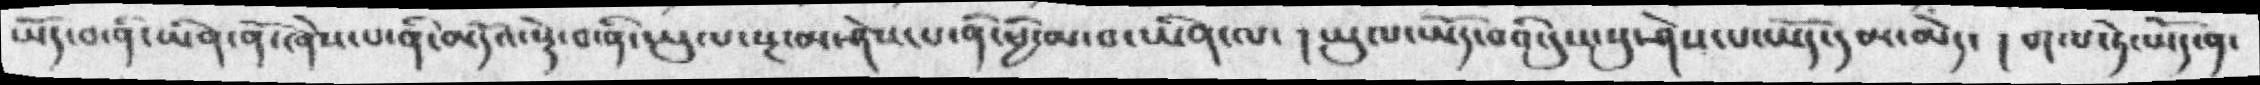ཡོད་པ་ནི་ཡིན་ནོ་ཞེས་པ་ནི་མདོའི་སྡེ་བ་ནི་ཡུལ་སྔ་མ་ཤེས་པ་ནི་ཕྱི་མ་བཡིན་ལ་ ། ཡུལ་ཡོད་པའི་དུས་སུ་ཤེས་པ་ཡོད་དམ་མེད་  ། གལ་ཏེ་ཡོད་ན་
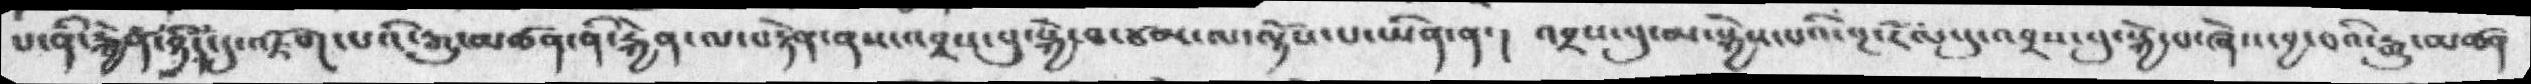པ་ནི་རྐྱེན་ཉིད་དུ་འཇོག་པའི་རྒྱུ་མཚན་ནི་རྐྱེན་ལ་བརྟེན་ནས་འབྲས་བུ་སྐྱེ་བ་ཙམ་ལ་ལྟོས་པ་ཡིན་ན་ ། འབྲས་བུ་མ་སྐྱེས་པའི་སྔ་རོལ་དུ་འབྲས་བུ་སྐྱེ་བ་ཞེས་བྱ་བའི་རྒྱུ་མཚན་
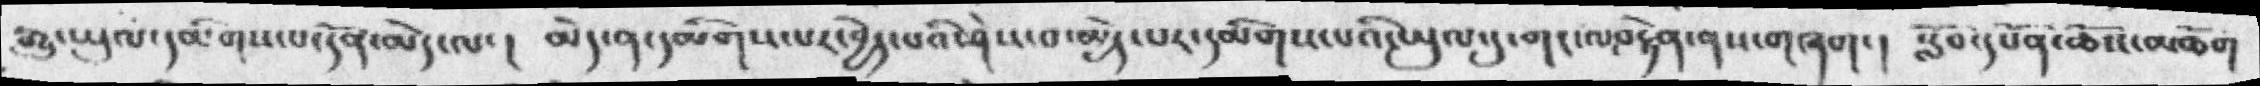རྒྱུ་ཡུལ་དམིགས་པ་དོན་མེད་ལ་ །   མེད་ན་དམིགས་པར་བྱེད་པའི་ཤེས་བ་མྱེད་པར་དམིགས་པའི་ཡུལ་དུ་གང་ལ་བརྟེན་ནས་གཞག་།   སློབ་དཔོན་ཆོས་མཆོག་
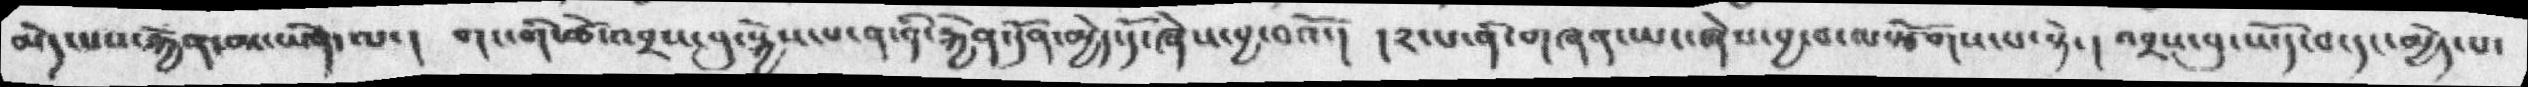མེད་པས་རྐྱེན་མ་ཡིན་ལ་།  གང་གི་ཚེ་འབྲས་བུ་སྐྱེས་པ་ན་ནི་རྐྱེན་དོན་མྱེད་དོ་ཞེས་བྱ་བའོ་། །༢་པ་ནི་གཞན་ཡང་ཞེས་བྱ་བ་ལསྩོགས་པ་སྟེ་། འབྲས་བུ་ཡོད་བ་དང་མྱེད་པ་
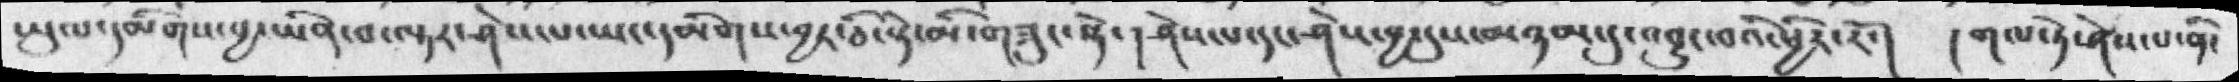ཡུལ་དམིགས་བྱ་ཡིན་བ་ལྟར་ཤེས་པ་ཡང་དམིགས་བྱར་ཅི་སྟེ་མི་གཟུང་སྟེ་། ཤེས་པ་དང་ཤེས་བྱ་དུས་མཉམ་དུ་འབྱུང་བའི་ཕྱིར་རོ་།  །གལ་ཏེ་ཤེས་པ་ནི་
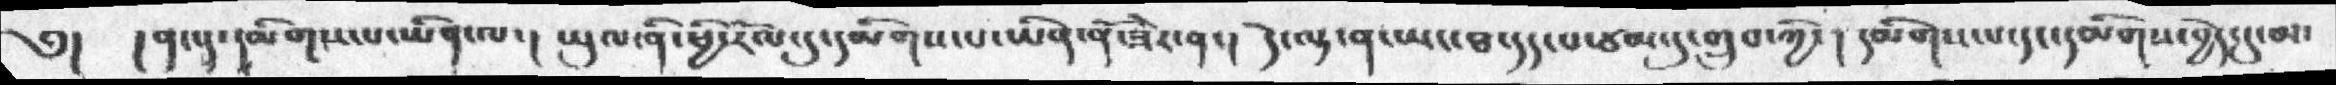༅།   ། ནང་དུ་དམིགས་པ་ཡིན་ལ་།  ཡུལ་ནི་ཕྱི་རོལ་དུ་དམིགས་པ་ཡིན་ནོ་ཟེར་ན་།  དེ་ལྟ་ན་ཡང་ཐ་དད་པ་ཙམ་དུ་གྲུབ་ཀྱི་། དམིགས་པ་དང་དམིགས་བྱེད་དུ་མ་
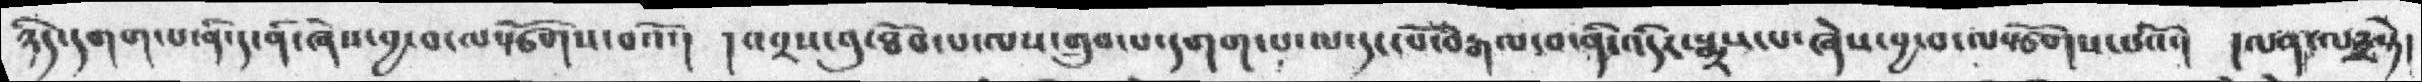ཉིད་དགག་པ་ནི་ད་ནི་ཞེས་བྱ་བ་ལསྩོགས་བའོ་། །འབྲས་བུ་ཐོབ་པ་ལས་གྲུབ་པ་དགག་པ་ལ་དང་པོ་བརྒལ་བ་ནི་འདིར་སྨྲས་ཞེས་བྱ་བ་ལསྩོགས་པའོ་།  །ལན་ལ༣སྟེ།
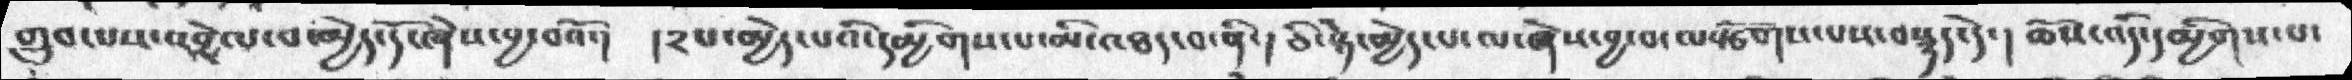གྲུབ་པས་འབྲེལ་བ་མྱེད་དོ་ཞེས་བྱ་བའོ་།  །༢པ་མྱེད་པའི་དམྱིགས་པ་མི་འཐད་བ་ནི་། ཅི་སྟེ་མྱེད་པ་ལ་ཞེས་བྱ་བ་ལསྩོགས་པས་བསྙད་དེ་། ཆོས་འདི་དམྱིགས་པ་
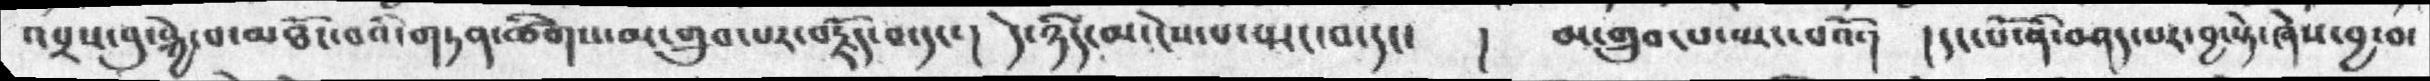འབྲས་བུ་སྐྱེ་བ་མཐོང་བའི་གཏན་ཚིགས་མ་གྲུབ་པར་བརྗོད་པ་དང་། དེ་ཉིད་མ་ངེས་པ་སྤང་བ་དང་   །    མ་གྲུབ་པ་པསྤང་པའོ་།  །དང་པོ་ནི་བཤད་པར་བྱ་སྟེ་ཞེས་བྱ་བ་
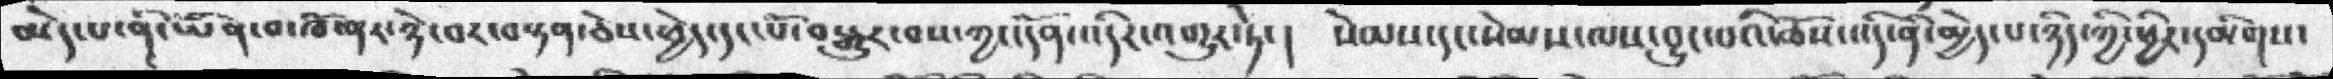མེད་པ་ནི་་ཡིན་བ་ཁོ་ནར་ཉེ་བར་བསྟན་ཅེས་ཕྱེད་དང་པོ་བསྒྱུར་བས་ཀྱང་དོན་འདིར་འགྱུར་ཏེ་།  སེམས་དང་སེམས་ལས་བྱུང་པའི་ཆོས་འདི་ནི་མྱེད་པ་ཉིད་ཀྱི་ཕྱིར་དམིགས་
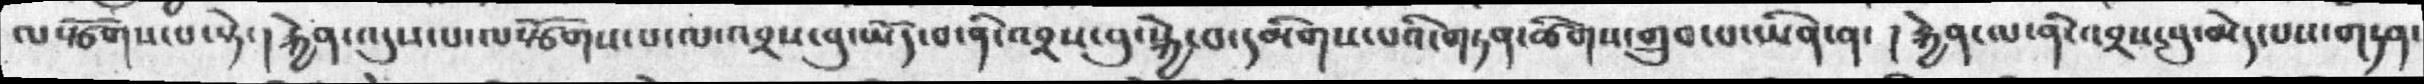ལསྩོགས་པ་སྟེ་། རྐྱེན་འདུས་པ་ལསྩོགས་པ་ལ་འབྲས་བུ་ཡོད་བ་ནི་འབྲས་བུ་སྐྱེ་བ་དམིགས་པའི་གཏན་ཚིགས་གྲུབ་པ་ཡིན་ན་། རྐྱེན་ལ་ནི་འབྲས་བུ་མེད་པས་གཏན་
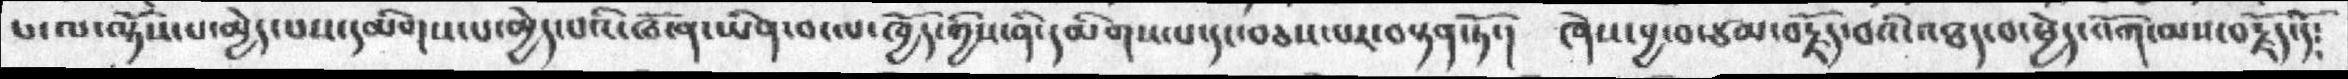པ་ལ་ལྟོས་པ་མྱེད་པས་དམིགས་པ་མྱེད་པའི་ཁོ་ན་ཡིན་བ་ལ་ཁྱོད་ཀྱིས་ནི་དམིགས་པ་དང་བཅས་པར་བསྟན་ཏོ་།  ཞེས་བྱ་བ་ཙམ་བརྗོད་བའི་འཐད་བ་ཕྱེད་འོག་མས་བརྗོད་དོ༴
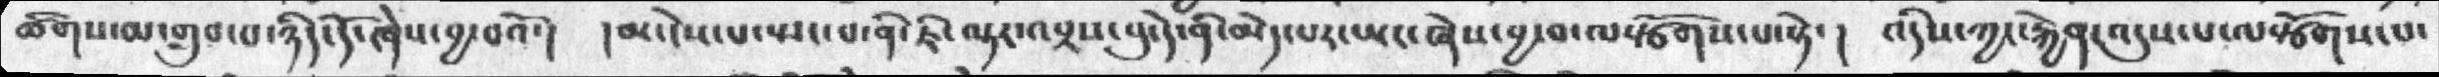ཚིགས་མ་གྲུབ་པ་ཉིད་དོ་ཞེས་བྱ་བའོ་།  མ་ངེས་པ་སྤང་པ་ནི་ཇི་ལྟར་འབྲས་བུ་དེ་ནི་མེད་པར་ཡང་ཞེས་བྱ་བ་ལསྩོགས་པ་སྟེ་།  འདིས་ཀྱང་རྐྱེན་འདུས་པ་ལསྩོགས་པ་
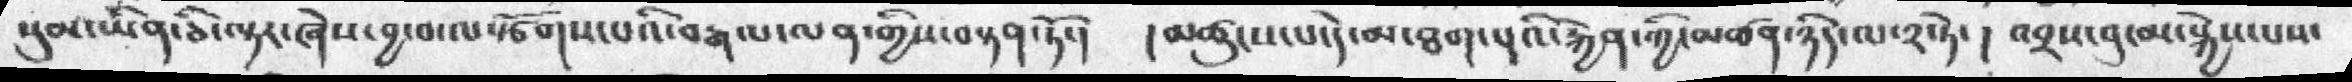སུམ་ཡིན་ཅི་ལྟར་ཞེས་བྱ་བ་ལསྩོགས་པའི་བརྒལ་ལན་གྱིས་བསྟན་ཏོ་།   །མཚུངས་པ་དེ་མ་ཐག་པའི་རྐྱེན་ཀྱི་མཚན་ཉིད་ལ་༢་ཏེ་  ། འབྲས་བུ་མ་སྐྱེས་པས་
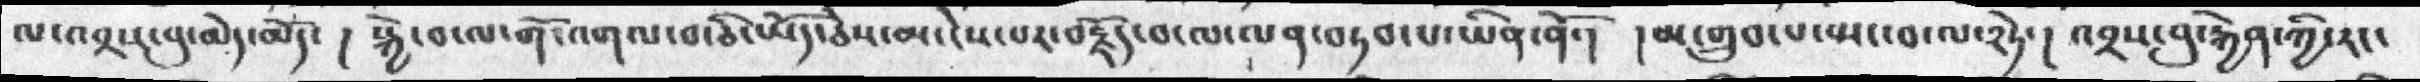ལ་འབྲས་བུ་མེད་མོད་  ། སྐྱེ་བ་ལ་གོ་འགལ་བ་ཅི་ཡོད་ཅེས་མ་ངེས་པར་བརྗོད་པ་ལ་ལན་བཏབ་པ་ཡིན་ནོ་།   ། མ་གྲུབ་པ་སྤང་བ་ལ་༢ཏེ་ ། འབྲས་བུ་རྐྱེན་ཀྱི་རང་
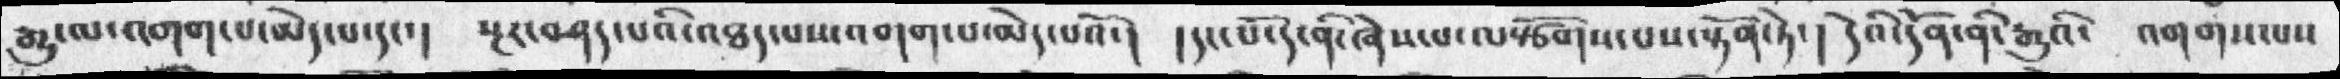རྒྱུ་ལ་འགག་པ་མེད་པ་དང་། སྔར་བཤད་པའི་འཐད་པས་འགག་པ་མེད་པའོ་། །དང་པོ་དེ་ནི་ཞེས་པ་ལསྩོགས་པས་སྟོན་ཏེ་། དེའི་དོན་ནི་རྒྱུའི་  འགགས་པས་
